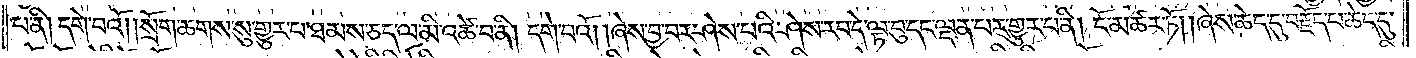པ་ནི། དགེ་བའོ། །སྲོག་ཆགས་སུ་གྱུར་པ་ཐམས་ཅད་ལ་མི་འཚེ་བ་ནི། དགེ་བའོ། །ཞེས་བྱ་བར་ཤེས་པའི་ཤེས་རབ་དེ་ལྟ་བུ་དང་ལྡན་པར་གྱུར་པ་ནི། ངོ་མཚར་ཏོ། །ཞེས་ཆེད་དུ་བརྗོད་པ་ཆེད་དུ་
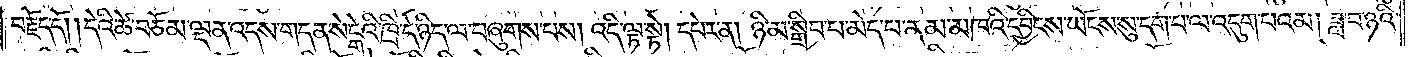བརྗོད་དོ། །དེའི་ཚེ་བཅོམ་ལྡན་འདས་གདན་སེངྒེའི་ཁྲི་དེ་ཉིད་ལ་བཞུགས་པས། འདི་ལྟ་སྟེ། དཔེར་ན། ཉི་མ་སྒྲིབ་པ་མེད་པ་ནམ་མཁའི་དབྱིངས་ཡོངས་སུ་དག་པ་ལ་འདུག་པའམ། ཟླ་བ་ཉའི་
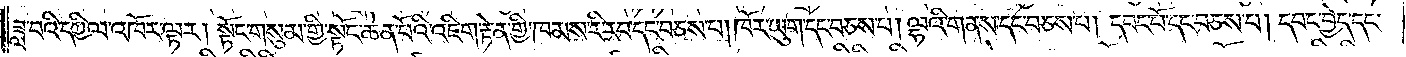ཟླ་བའི་དཀྱིལ་འཁོར་ལྟར། སྟོང་གསུམ་གྱི་སྟོང་ཆེན་པོའི་འཇིག་རྟེན་གྱི་ཁམས་རི་རབ་དང་བཅས་པ། ཁོར་ཡུག་དང་བཅས་པ། ལྷའི་གནས་དང་བཅས་པ། དབང་པོ་དང་བཅས་པ། དབང་བྱེད་དང་
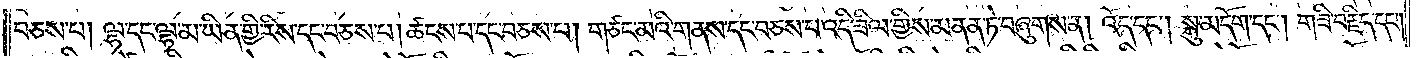བཅས་པ། ལྷ་དང་ལྷ་མ་ཡིན་གྱི་རིས་དང་བཅས་པ། ཚངས་པ་དང་བཅས་པ། གཙང་མའི་གནས་དང་བཅས་པ་འདི་ཟིལ་གྱིས་མནན་ཏེ་བཞུགས་ན། འོད་དང༌། སྐུ་མདོག་དང༌། གཟི་བརྗིད་དང༌།
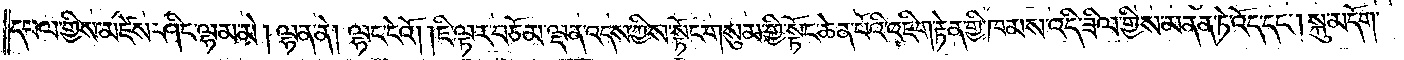དཔལ་གྱིས་མཛེས་ཤིང་ལྷམ་མེ། ལྷན་ནེ། ལྷང་ངེའོ། །ཇི་ལྟར་བཅོམ་ལྡན་འདས་ཀྱིས་སྟོང་གསུམ་གྱི་སྟོང་ཆེན་པོའི་འཇིག་རྟེན་གྱི་ཁམས་འདི་ཟིལ་གྱིས་མནན་ཏེ་འོད་དང༌། སྐུ་མདོག་
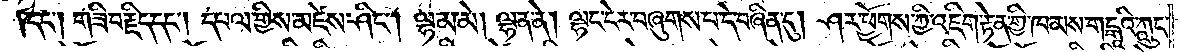དང༌། གཟི་བརྗིད་དང༌། དཔལ་གྱིས་མཛེས་ཤིང༌། ལྷམ་མེ། ལྷན་ནེ། ལྷང་ངེར་བཞུགས་པ་དེ་བཞིན་དུ། ཤར་ཕྱོགས་ཀྱི་འཇིག་རྟེན་གྱི་ཁམས་གངྒཱའི་ཀླུང་
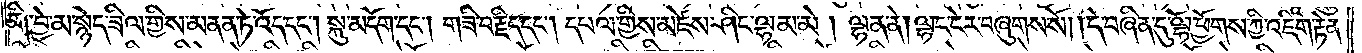གི་བྱེ་མ་སྙེད་ཟིལ་གྱིས་མནན་ཏེ་འོད་དང༌། སྐུ་མདོག་དང༌། གཟི་བརྗིད་དང༌། དཔལ་གྱིས་མཛེས་ཤིང་ལྷམ་མེ། ལྷན་ནེ། ལྷང་ངེར་བཞུགས་སོ། །དེ་བཞིན་དུ་ལྷོ་ཕྱོགས་ཀྱི་འཇིག་རྟེན་
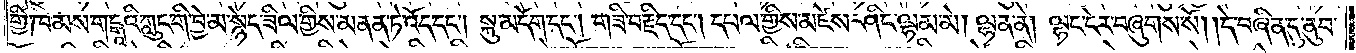གྱི་ཁམས་གངྒཱའི་ཀླུང་གི་བྱེ་མ་སྙེད་ཟིལ་གྱིས་མནན་ཏེ་འོད་དང༌། སྐུ་མདོག་དང༌། གཟི་བརྗིད་དང༌། དཔལ་གྱིས་མཛེས་ཤིང་ལྷམ་མེ། ལྷན་ནེ། ལྷང་ངེར་བཞུགས་སོ། །དེ་བཞིན་དུ་ནུབ་
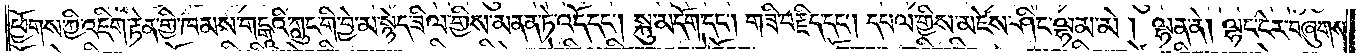ཕྱོགས་ཀྱི་འཇིག་རྟེན་གྱི་ཁམས་གངྒཱའི་ཀླུང་གི་བྱེ་མ་སྙེད་ཟིལ་གྱིས་མནན་ཏེ་འོད་དང༌། སྐུ་མདོག་དང༌། གཟི་བརྗིད་དང༌། དཔལ་གྱིས་མཛེས་ཤིང་ལྷམ་མེ། ལྷན་ནེ། ལྷང་ངེར་བཞུགས་
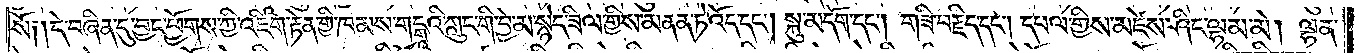སོ༑ །དེ་བཞིན་དུ་བྱང་ཕྱོགས་ཀྱི་འཇིག་རྟེན་གྱི་ཁམས་གངྒཱའི་ཀླུང་གི་བྱེ་མ་སྙེད་ཟིལ་གྱིས་མནན་ཏེ་འོད་དང༌། སྐུ་མདོག་དང༌། གཟི་བརྗིད་དང༌། དཔལ་གྱིས་མཛེས་ཤིང་ལྷམ་མེ། ལྷན་
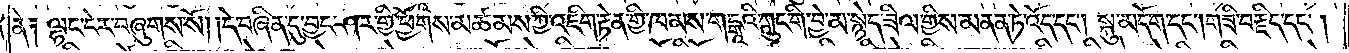ནེ༑ ལྷང་ངེར་བཞུགས་སོ། །དེ་བཞིན་དུ་བྱང་ཤར་གྱི་ཕྱོགས་མཚམས་ཀྱི་འཇིག་རྟེན་གྱི་ཁམས་གངྒཱའི་ཀླུང་གི་བྱེ་མ་སྙེད་ཟིལ་གྱིས་མནན་ཏེ་འོད་དང༌། སྐུ་མདོག་དང༌། གཟི་བརྗིད་དང༌།
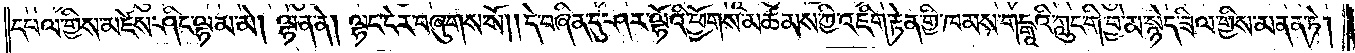དཔལ་གྱིས་མཛེས་ཤིང་ལྷམ་མེ། ལྷན་ནེ། ལྷང་ངེར་བཞུགས་སོ། །དེ་བཞིན་དུ་ཤར་ལྷོའི་ཕྱོགས་མཚམས་ཀྱི་འཇིག་རྟེན་གྱི་ཁམས་གངྒཱའི་ཀླུང་གི་བྱེ་མ་སྙེད་ཟིལ་གྱིས་མནན་ཏེ།
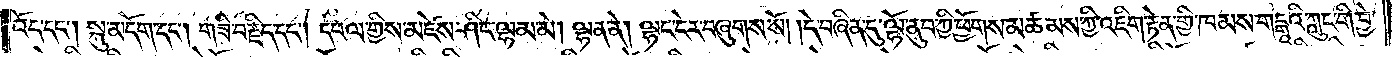འོད་དང༌། སྐུ་མདོག་དང༌། གཟི་བརྗིད་དང༌། དཔལ་གྱིས་མཛེས་ཤིང་ལྷམ་མེ། ལྷན་ནེ། ལྷང་ངེར་བཞུགས་སོ། །དེ་བཞིན་དུ་ལྷོ་ནུབ་ཀྱི་ཕྱོགས་མཚམས་ཀྱི་འཇིག་རྟེན་གྱི་ཁམས་གངྒཱའི་ཀླུང་གི་བྱེ་
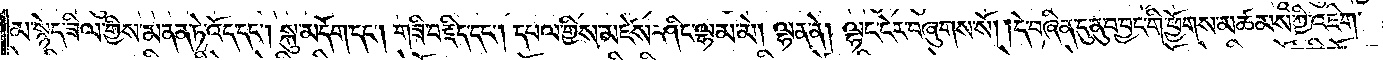མ་སྙེད་ཟིལ་གྱིས་མནན་ཏེ་འོད་དང༌། སྐུ་མདོག་དང༌། གཟི་བརྗིད་དང༌། དཔལ་གྱིས་མཛེས་ཤིང་ལྷམ་མེ། ལྷན་ནེ། ལྷང་ངེར་བཞུགས་སོ། །དེ་བཞིན་དུ་ནུབ་བྱང་གི་ཕྱོགས་མཚམས་ཀྱི་འཇིག་
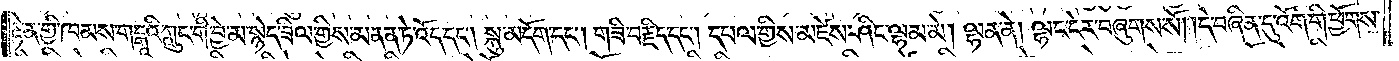རྟེན་གྱི་ཁམས་གངྒཱའི་ཀླུང་གི་བྱེ་མ་སྙེད་ཟིལ་གྱིས་མནན་ཏེ་འོད་དང༌། སྐུ་མདོག་དང༌། གཟི་བརྗིད་དང༌། དཔལ་གྱིས་མཛེས་ཤིང་ལྷམ་མེ། ལྷན་ནེ། ལྷང་ངེར་བཞུགས་སོ། །དེ་བཞིན་དུ་འོག་གི་ཕྱོགས་
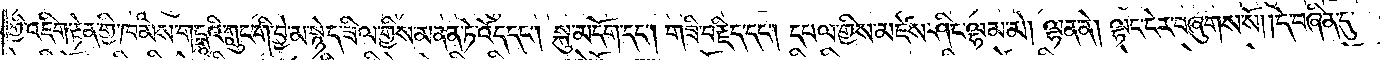ཀྱི་འཇིག་རྟེན་གྱི་ཁམས་གངྒཱའི་ཀླུང་གི་བྱེ་མ་སྙེད་ཟིལ་གྱིས་མནན་ཏེ་འོད་དང༌། སྐུ་མདོག་དང༌། གཟི་བརྗིད་དང༌། དཔལ་གྱིས་མཛེས་ཤིང་ལྷམ་མེ། ལྷན་ནེ། ལྷང་ངེར་བཞུགས་སོ། །དེ་བཞིན་དུ་
